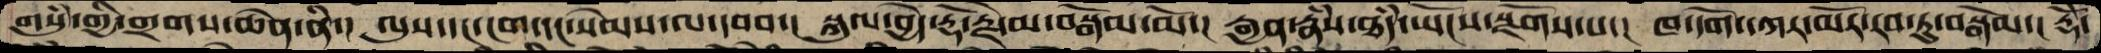གསུཾ་གྱི་གྲགས་ཆེན་ནི་།  ལུས་དང་ངག་དང་སེམས་ལ་དབབ་།  སྐུལ་བྱེད་རྡོ་རྗེ་མ་བསྒོམ་མོ་།  རྒྱན་རྣཾས་ཐདཾ་ཡོངས་སྫོགས་པ་།  ཁ་དོག་དཀར་མོར་རབ་ཏུ་བསྒོམ་།  རྡོེ་
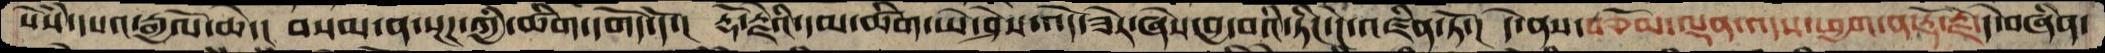སེཾས་དཔའ་རྒྱལོ་ཆེ་།  བསམ་ན་སྔཌ་ཀྱི་ཚིག་དགོད་དོ་།  རྡོ་རྗེའི་དམ་ཚིག་ཡེ་ཤེས་འོད་ཟེར་ཞེས་བྱ་བའི་ཏིང་ངེ་འཛིན་ཏོ་།  དེ་ནས་བཅོམ་ལྡན་འདས་ཕྱག་ན་རྡོ་རྗེ་དེ་བཞིན་
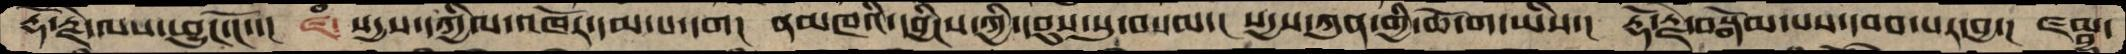རྡོ་རྗེ་ལས་ཕྱུང་ངོ་།  ཛཾ༴  སདྱས་དཀྱིལ་འཁོར་དམ་པ་དག།  ནམཁའི་དབྱིངས་ཀྱི་དབུས་སུ་བསམ་།  སདྱས་ཀུན་གྱི་ཆོ་ག་ཡིས་།  རྡོ་རྗེ་བསྒོམ་པས་དབབ་པར་བྱ་།  ཛམྦྷ་
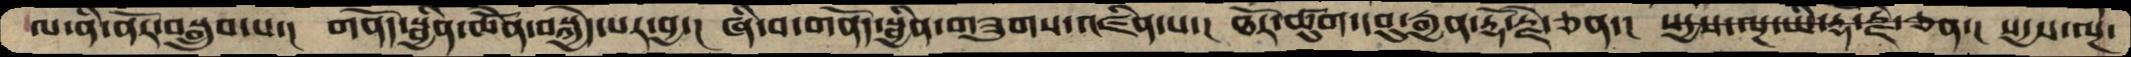ལ་ནི་ནོར་བསྒྲུབ་པ་།  གནོད་སྦྱིན་ཆེོན་བསྐྱེད་པར་བྱ་།  ཞི་བ་གནདོ་སྦྱིན་གཟུགས་འཛིན་པ་།  ཐོར་ཚུག་དབུ་རྒྱན་རྡོ་རྗེ་ཅན་།  སདྱས་ལྔ་ཡི་རྡོ་རྗེ་ཅན་།  སདྱས་ལྔ་
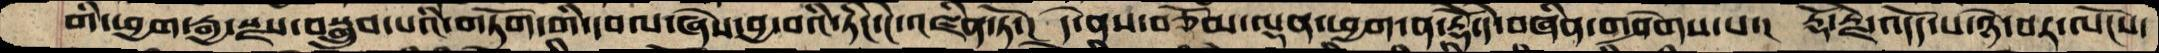གི་ཕྱག་རྒྱ་སྫས་བསྒྲུབ་པའི་གཏོག་གི་དབལ་ཞེས་བྱ་བའི་ཏིང་ངེ་འཛིན་ཏོ་།  དེ་ནས་བཅོམ་ལྡན་ཕྱག་ན་རྡོེ་དེ་བཞིན་གཤེགས་པ་།  རྡོ་རྗེ་འདོད་པ་ཉེ་བར་ལོངས་
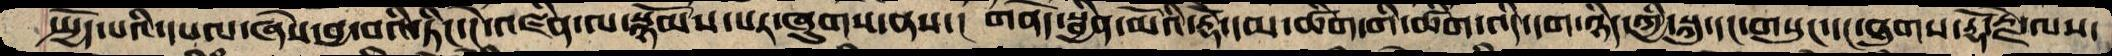སྤྱོད་པའི་དཔལ་ཞེས་བྱ་བའི་ཏིང་ངེ་འཛིན་ལ་སྙོམས་པར་ཞུགས་ནས་།  གནོད་སྦྱིན་མོའི་རྡོེ་དམ་ཚིག་གི་འདི་དག་ཉིད་ཀྱི་སྐུ་དང་གསུང་དང་ཐུགས་རྡོ་རྗེ་ལས་
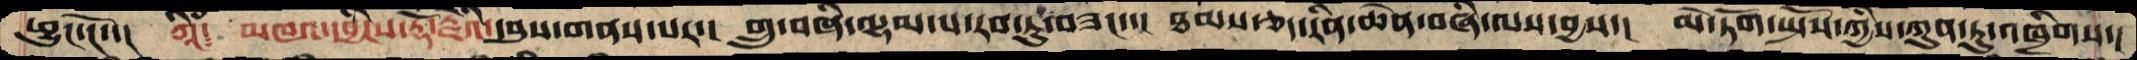ཕྱུང་ངོ་་།  ཀཱིཾ༴  མཁའ་དབྱིངས་རྡོ་རྗེའི་དབུས་གནས་པར་།  གྲུ་བཞི་ལྷམ་པ་རབ་ཏུ་བཟང་་།  ཐམས་ཅད་རིན་ཆེན་བཞི་ལས་བྱས་།  མེ་ཏོག་སྤོས་ཀྱིས་ཀུན་ཏུ་འཁྲིགས་།
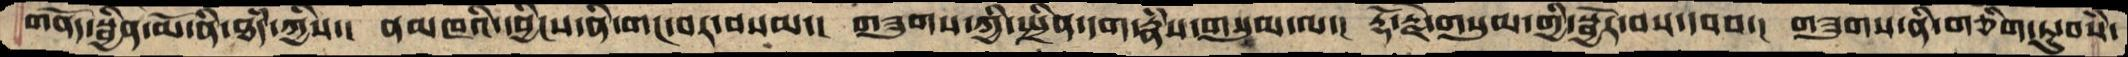གནོད་སྦྱིན་མོ་ནི་ཐདཾ་ཀྱིས་།  ནམཁའི་དབྱིངས་ནི་གང་བར་བསམ་།  གཟུགས་ཀྱི་སྤྲིན་དག་རྣཾས་གསུམ་ལ་།  རྡོ་རྗེ་གསུམ་གྱི་སྦྱོར་བས་དབབ་།  གཟུགས་ནི་གཅིག་ཏུ་བསཾ་
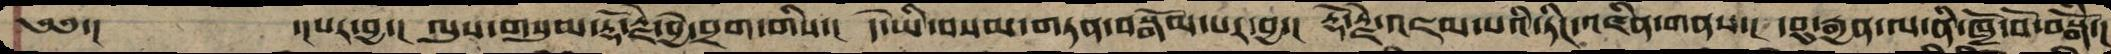༄༅་།     ་།པར་བྱ་།  ལུས་གསུམ་རྡོ་རྗེ་བྱེ་བྲག་གིས་།  དེ་ཡི་བསམ་གཏན་བསྒོམ་པར་བྱ་།  རྡོ་རྗེ་འཇམ་པའི་ཏིང་འཛིན་གནས་།  དབུ་རྒྱན་ལ་ནི་ཁྲོ་བོ་བསྒོཾ་།
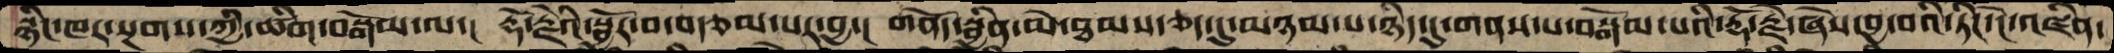སྙིང་ཁར་སྔགས་ཀྱི་ཚིག་བསྒོམ་ལ་།  རྡོ་རྗེའི་སྦྱོར་བ་བརྩམ་པར་བྱ་།  གནོད་སྦྱིན་མེ་ཐམས་ཅད་དུ་མཉམ་པ་ཉིད་དུ་གནས་པ་བསྒོམ་པའི་རྡོ་རྗེ་ཞེས་བྱ་བའི་ཏིང་ངེ་འཛིན་
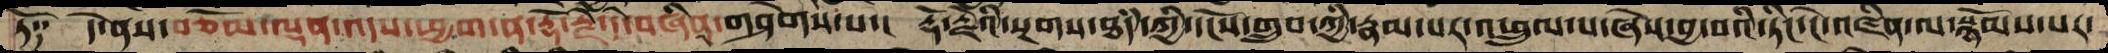ཏོ༑    དེ་ནས་བཅོམ་ལྡན་འདས་ཕྱག་ན་རྡོ་རྗེ་དེ་བཞིན་གཤེགས་པ་།  རྡོ་རྗེའི་སྔགས་ཐདཾ་ཀྱི་དངོས་གྲུབ་ཀྱི་རྣམ་པར་འཕྲུལ་པ་ཞེས་བྱ་བའི་ཏིང་ངེ་འཛིན་ལ་སྙོམས་པར་
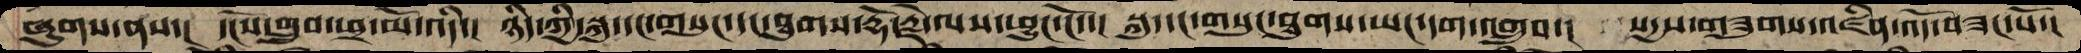ཞུགས་ནས་།  དངོས་གྲུབ་ཕྲ་མོ་འདི་།  ཉིད་ཀྱི་སྐུ་དང་གསུང་དང་ཐུགས་རྡོ་རྗེ་ལས་ཕྱུང་ངོ་་།  སྐུ་དང་གསུང་དང་ཐུགས་ཡང་དག་འགྲུབ་།  སདྱས་གཟུགས་འཛིན་འོད་བཟང་པོ་།
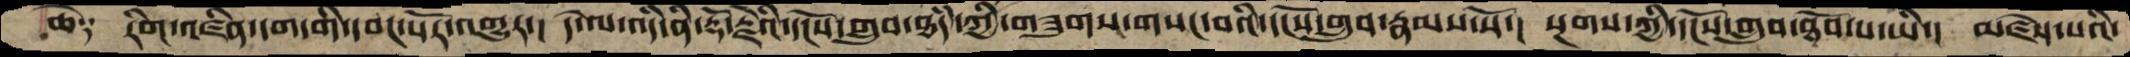ཆེ༑   རིག་འཛིན་དག་གི་དབང་པོར་འགྱུར་།  དེ་ལ་འདི་ནི་རྡོ་རྗེའི་དངོས་གྲུབ་ཐདཾ་ཀྱི་གཟུགས་གསང་བའི་དངོས་གྲུབ་རྣམས་སོ་།  སྔགས་ཀྱི་དངོས་གྲུབ་ཐོབ་པ་ཡི་།  མཛེས་པའི་
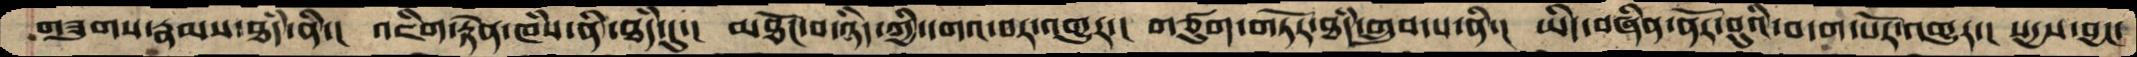གཟུགས་རྣམས་ཐདཾ་ནི་།  འཇིག་རྟེན་ཁཾས་ནི་ཐདཾ་དུ་།  མཐོང་བ་ཉིད་ཀྱི་དགའ་བར་འགྱུར་།  གཙུག་གཏོར་ཐདཾ་གྲུབ་པ་ནི་།  ཡིད་བཞིན་ནོར་བུའི་བདག་པོར་འགྱུར་།  སདྱས་བྱང་
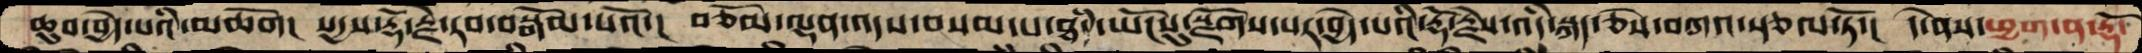ཆུབ་བྱེད་པའི་མཆོག།  སདྱས་རྡོ་རྗེ་རབ་བསྒོམ་པའོ་།  བཅོམ་ལྡན་འདས་བསམ་པ་ཐདཾ་ཡོངསུ་སྫོགས་པར་བྱེད་པའི་རྡོ་རྗེས་འདི་སྐད་ཅེས་བཀའ་སྩལ་ཏོ་།  དེ་ནས་ཕྱག་ན་རྡོ་
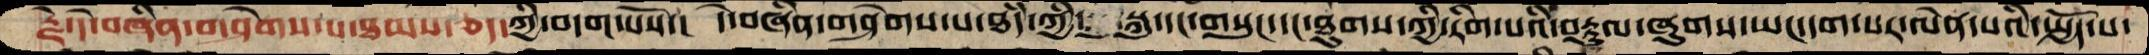རྗེ་དེ་བཞིན་གཤེགས་པ་ཐམས་ཅད་ཀྱི་བདག་པོས་།  དེ་བཞིན་གཤེགས་པ་ཐདཾ་ཀྱི་ སྐུ་དང་གསུང་དང་ཐུགས་ཀྱི་རིག་པའི་བརྟུལ་ཞུགས་ཡང་དག་པར་ལེན་པའི་སྤྱོད་པ་
